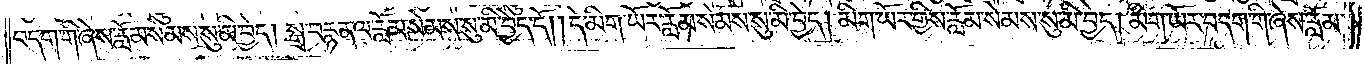བདག་གི་ཞེས་རློམ་སེམས་སུ་མི་བྱེད། སྒྲ་བརྙན་ལ་རློམ་སེམས་སུ་མི་བྱེད་དོ། །དེ་མིག་ཡོར་རློམ་སེམས་སུ་མི་བྱེད། མིག་ཡོར་གྱིས་རློམ་སེམས་སུ་མི་བྱེད། མིག་ཡོར་བདག་གི་ཞེས་རློམ་
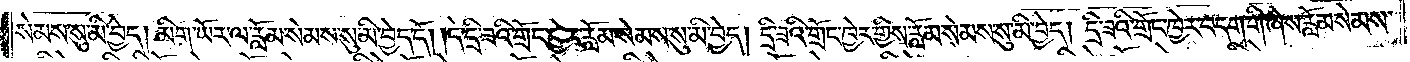སེམས་སུ་མི་བྱེད། མིག་ཡོར་ལ་རློམ་སེམས་སུ་མི་བྱེད་དོ། །དེ་དྲི་ཟའི་གྲོང་ཁྱེར་རློམ་སེམས་སུ་མི་བྱེད། དྲི་ཟའི་གྲོང་ཁྱེར་གྱིས་རློམ་སེམས་སུ་མི་བྱེད། དྲི་ཟའི་གྲོང་ཁྱེར་བདག་གི་ཞེས་རློམ་སེམས་
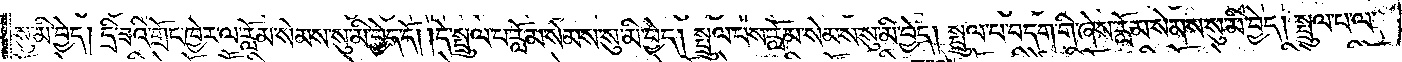སུ་མི་བྱེད། དྲི་ཟའི་གྲོང་ཁྱེར་ལ་རློམ་སེམས་སུ་མི་བྱེད་དོ། །དེ་སྤྲུལ་པ་རློམ་སེམས་སུ་མི་བྱེད། སྤྲུལ་པས་རློམ་སེམས་སུ་མི་བྱེད། སྤྲུལ་པ་བདག་གི་ཞེས་རློམ་སེམས་སུ་མི་བྱེད། སྤྲུལ་པ་ལ་
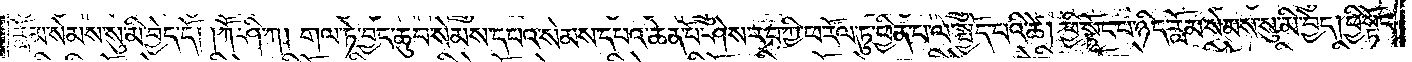རློམ་སེམས་སུ་མི་བྱེད་དོ། །ཀཽ་ཤི་ཀ། གལ་ཏེ་བྱང་ཆུབ་སེམས་དཔའ་སེམས་དཔའ་ཆེན་པོ་ཤེས་རབ་ཀྱི་ཕ་རོལ་ཏུ་ཕྱིན་པ་ལ་སྤྱོད་པའི་ཚེ། ཕྱི་སྟོང་པ་ཉིད་རློམ་སེམས་སུ་མི་བྱེད། ཕྱི་སྟོང་
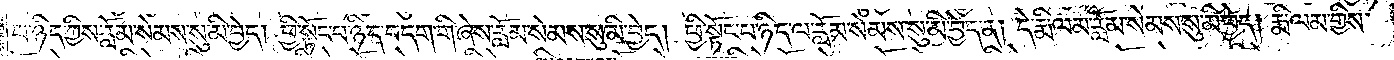པ་ཉིད་ཀྱིས་རློམ་སེམས་སུ་མི་བྱེད། ཕྱི་སྟོང་པ་ཉིད་བདག་གི་ཞེས་རློམ་སེམས་སུ་མི་བྱེད། ཕྱི་སྟོང་པ་ཉིད་ལ་རློམ་སེམས་སུ་མི་བྱེད་ན། དེ་རྨི་ལམ་རློམ་སེམས་སུ་མི་བྱེད། རྨི་ལམ་གྱིས་
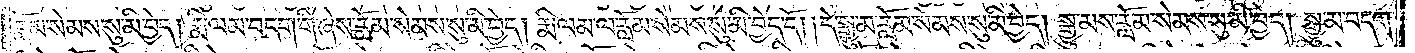རློམ་སེམས་སུ་མི་བྱེད། རྨི་ལམ་བདག་གི་ཞེས་རློམ་སེམས་སུ་མི་བྱེད། རྨི་ལམ་ལ་རློམ་སེམས་སུ་མི་བྱེད་དོ། །དེ་སྒྱུ་མ་རློམ་སེམས་སུ་མི་བྱེད། སྒྱུ་མས་རློམ་སེམས་སུ་མི་བྱེད། སྒྱུ་མ་བདག་
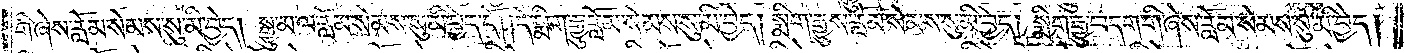གི་ཞེས་རློམ་སེམས་སུ་མི་བྱེད། སྒྱུ་མ་ལ་རློམ་སེམས་སུ་མི་བྱེད་དོ། །དེ་སྨིག་རྒྱུ་རློམ་སེམས་སུ་མི་བྱེད། སྨིག་རྒྱུས་རློམ་སེམས་སུ་མི་བྱེད། སྨིག་རྒྱུ་བདག་གི་ཞེས་རློམ་སེམས་སུ་མི་བྱེད།
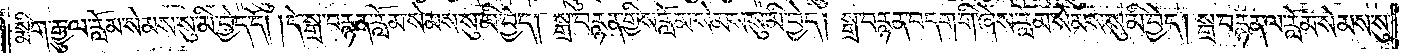སྨིག་རྒྱུ་ལ་རློམ་སེམས་སུ་མི་བྱེད་དོ། །དེ་སྒྲ་བརྙན་རློམ་སེམས་སུ་མི་བྱེད། སྒྲ་བརྙན་གྱིས་རློམ་སེམས་སུ་མི་བྱེད། སྒྲ་བརྙན་བདག་གི་ཞེས་རློམ་སེམས་སུ་མི་བྱེད། སྒྲ་བརྙན་ལ་རློམ་སེམས་སུ་
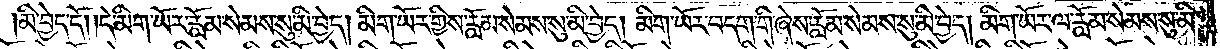མི་བྱེད་དོ། །དེ་མིག་ཡོར་རློམ་སེམས་སུ་མི་བྱེད། མིག་ཡོར་གྱིས་རློམ་སེམས་སུ་མི་བྱེད། མིག་ཡོར་བདག་གི་ཞེས་རློམ་སེམས་སུ་མི་བྱེད། མིག་ཡོར་ལ་རློམ་སེམས་སུ་མི་
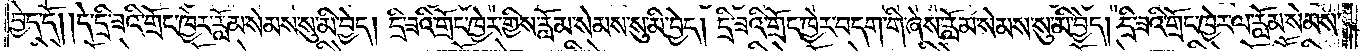བྱེད་དོ། །དེ་དྲི་ཟའི་གྲོང་ཁྱེར་རློམ་སེམས་སུ་མི་བྱེད། དྲི་ཟའི་གྲོང་ཁྱེར་གྱིས་རློམ་སེམས་སུ་མི་བྱེད། དྲི་ཟའི་གྲོང་ཁྱེར་བདག་གི་ཞེས་རློམ་སེམས་སུ་མི་བྱེད། དྲི་ཟའི་གྲོང་ཁྱེར་ལ་རློམ་སེམས་
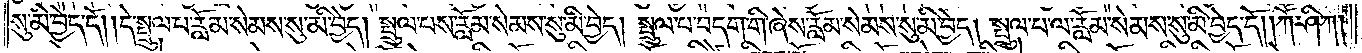སུ་མི་བྱེད་དོ། །དེ་སྤྲུལ་པ་རློམ་སེམས་སུ་མི་བྱེད། སྤྲུལ་པས་རློམ་སེམས་སུ་མི་བྱེད། སྤྲུལ་པ་བདག་གི་ཞེས་རློམ་སེམས་སུ་མི་བྱེད། སྤྲུལ་པ་ལ་རློམ་སེམས་སུ་མི་བྱེད་དོ། །ཀཽ་ཤི་ཀ།
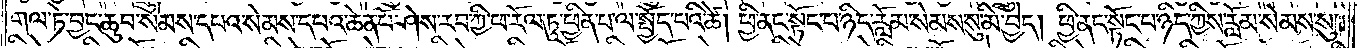གལ་ཏེ་བྱང་ཆུབ་སེམས་དཔའ་སེམས་དཔའ་ཆེན་པོ་ཤེས་རབ་ཀྱི་ཕ་རོལ་ཏུ་ཕྱིན་པ་ལ་སྤྱོད་པའི་ཚེ། ཕྱི་ནང་སྟོང་པ་ཉིད་རློམ་སེམས་སུ་མི་བྱེད། ཕྱི་ནང་སྟོང་པ་ཉིད་ཀྱིས་རློམ་སེམས་སུ་
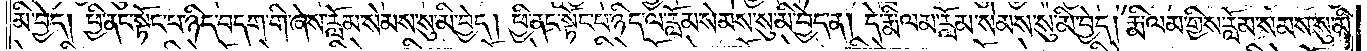མི་བྱེད། ཕྱི་ནང་སྟོང་པ་ཉིད་བདག་གི་ཞེས་རློམ་སེམས་སུ་མི་བྱེད། ཕྱི་ནང་སྟོང་པ་ཉིད་ལ་རློམ་སེམས་སུ་མི་བྱེད་ན། དེ་རྨི་ལམ་རློམ་སེམས་སུ་མི་བྱེད། རྨི་ལམ་གྱིས་རློམ་སེམས་སུ་མི་
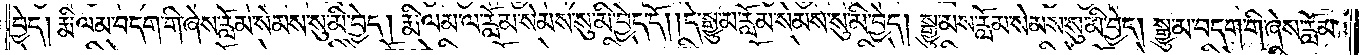བྱེད། རྨི་ལམ་བདག་གི་ཞེས་རློམ་སེམས་སུ་མི་བྱེད། རྨི་ལམ་ལ་རློམ་སེམས་སུ་མི་བྱེད་དོ། །དེ་སྒྱུ་མ་རློམ་སེམས་སུ་མི་བྱེད། སྒྱུ་མས་རློམ་སེམས་སུ་མི་བྱེད། སྒྱུ་མ་བདག་གི་ཞེས་རློམ་
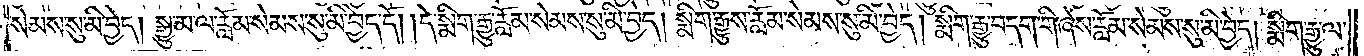སེམས་སུ་མི་བྱེད། སྒྱུ་མ་ལ་རློམ་སེམས་སུ་མི་བྱེད་དོ། །དེ་སྨིག་རྒྱུ་རློམ་སེམས་སུ་མི་བྱེད། སྨིག་རྒྱུས་རློམ་སེམས་སུ་མི་བྱེད། སྨིག་རྒྱུ་བདག་གི་ཞེས་རློམ་སེམས་སུ་མི་བྱེད། སྨིག་རྒྱུ་ལ་
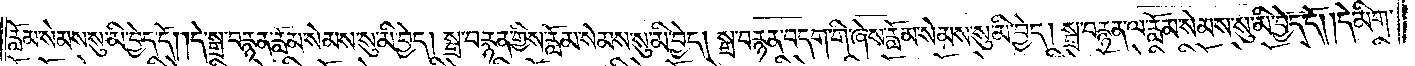རློམ་སེམས་སུ་མི་བྱེད་དོ། །དེ་སྒྲ་བརྙན་རློམ་སེམས་སུ་མི་བྱེད། སྒྲ་བརྙན་གྱིས་རློམ་སེམས་སུ་མི་བྱེད། སྒྲ་བརྙན་བདག་གི་ཞེས་རློམ་སེམས་སུ་མི་བྱེད། སྒྲ་བརྙན་ལ་རློམ་སེམས་སུ་མི་བྱེད་དོ། །དེ་མིག་
